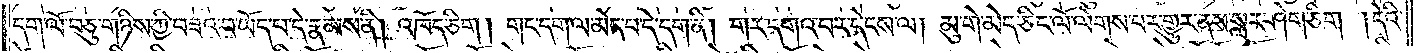དག་ལོ་བཅུ་གཉིས་ཀྱི་བཟའ་བ་ཡོད་པ་དེ་རྣམས་ནི། འཁོད་ཅིག །གང་དག་ལ་མེད་པ་དེ་དག་ནི། གར་དགའ་བར་དེངས་ལ། མུ་གེ་མེད་ཅིང་ལོ་ལེགས་པར་གྱུར་ནས་སླར་ཤེག་ཅིག །དེའི་
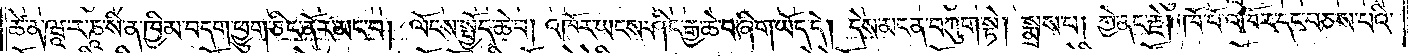ཚེ་ན་ཝཱ་ར་ཎཱ་སི་ན་ཁྱིམ་བདག་ཕྱུག་ཅིང་ནོར་མང་བ། ལོངས་སྤྱོད་ཆེ་བ། འཁོར་ཡངས་ཤིང་རྒྱ་ཆེ་བ་ཞིག་ཡོད་དེ། དེས་མངན་བཀུག་སྟེ། སྨྲས་པ། ཀྱེ་ནང་རྗེ། ཁོ་བོ་འཁོར་དང་བཅས་པའི་
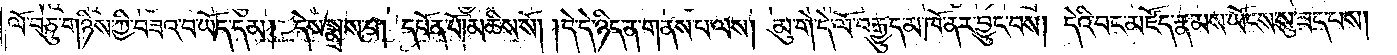ལོ་བཅུ་གཉིས་ཀྱི་བཟའ་བ་ཡོད་དམ། དེས་སྨྲས་པ། དཔོན་པོ། མཆིས་སོ། །དེ་དེ་ཉིད་ན་གནས་པ་ལས། མུ་གེ་དེ་ལོ་བརྒྱུད་མ་ཁོ་ནར་བྱུང་བས། དེའི་བང་མཛོད་རྣམས་ཡོངས་སུ་ཟད་པས།
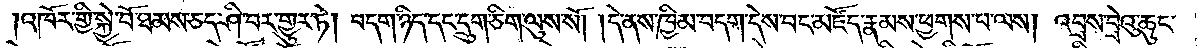འཁོར་གྱི་སྐྱེ་བོ་ཐམས་ཅད་ཤི་བར་གྱུར་ཏེ། བདག་ཉིད་དང་དྲུག་ཅིག་ལུས་སོ། །དེ་ནས་ཁྱིམ་བདག་དེས་བང་མཛོད་རྣམས་ཕྱགས་པ་ལས། འབྲས་བྲེའུ་ཆུང་
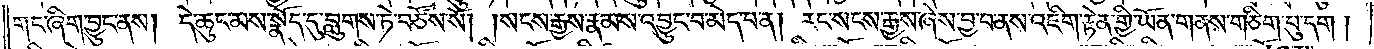གང་ཞིག་བྱུང་ནས། དེ་ཆུང་མས་སྣོད་དུ་བླུགས་ཏེ་བཙོས་སོ། །སངས་རྒྱས་རྣམས་འབྱུང་བ་མེད་པ་ན། རང་སངས་རྒྱས་ཞེས་བྱ་བ་ནས་འཇིག་རྟེན་གྱི་ཡོན་གནས་གཅིག་པུ་དག །
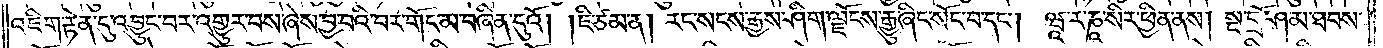འཇིག་རྟེན་དུ་འབྱུང་བར་འགྱུར་བས་ཞེས་བྱ་བའི་བར་གོང་མ་བཞིན་དུའོ། །ཇི་ཙམ་ན། རང་སངས་རྒྱས་ཤིག་ལྗོངས་རྒྱུ་ཞིང་སོང་བ་དང༌། ཝཱ་ར་ཎཱ་སིར་ཕྱིན་ནས། སྔ་དྲོ་ཤམ་ཐབས་
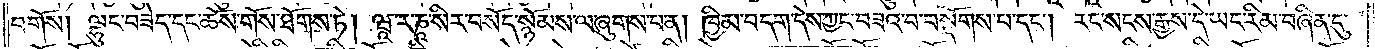བགོས། ལྷུང་བཟེད་དང་ཆོས་གོས་ཐོགས་ཏེ། ཝཱ་ར་ཎཱ་སིར་བསོད་སྙོམས་ལ་ཞུགས་པ་ན། ཁྱིམ་བདག་དེས་ཀྱང་བཟའ་བ་བསྡོགས་པ་དང༌། རང་སངས་རྒྱས་དེ་ཡང་རིམ་བཞིན་དུ་
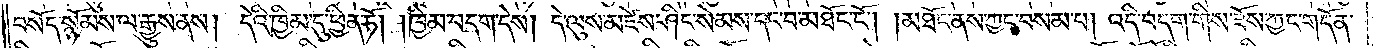བསོད་སྙོམས་ལ་རྒྱུས་ནས། དེའི་ཁྱིམ་དུ་ཕྱིན་ཏོ། །ཁྱིམ་བདག་དེས། དེ་ལུས་མཛེས་ཤིང་སེམས་དང་བ་མཐོང་ངོ༌། །མཐོང་ནས་ཀྱང་བསམ་པ། འདི་བདག་གིས་ཟོས་ཀྱང་གདོན་
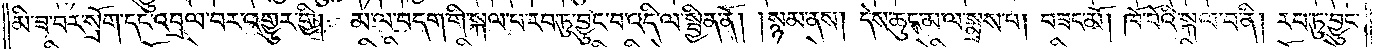མི་ཟ་བར་སྲོག་དང་འབྲལ་བར་འགྱུར་གྱི། མ་ལ་བདག་གི་སྐལ་པ་རབ་ཏུ་བྱུང་བ་འདི་ལ་སྦྱིན་ནོ། །སྙམ་ནས། དེས་ཆུང་མ་ལ་སྨྲས་པ། བཟང་མོ། ཁོ་བོའི་སྐལ་པ་ནི། རབ་ཏུ་བྱུང་
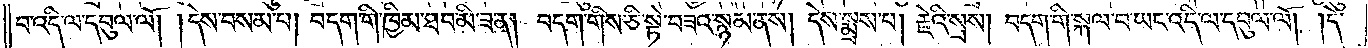བ་འདི་ལ་དབུལ་ལོ། །དེས་བསམ་པ། བདག་གི་ཁྱིམ་ཐབ་མི་ཟ་ན། བདག་གིས་ཅི་སྟེ་བཟའ་སྙམ་ནས། དེས་སྨྲས་པ། རྗེའི་སྲས། བདག་གི་སྐལ་པ་ཡང་འདི་ལ་དབུལ་ལོ། །དེ་
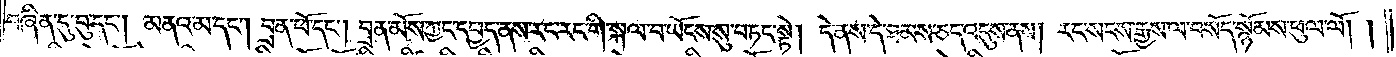བཞིན་དུ་བུ་དང༌། མནའ་མ་དང༌། བྲན་ཕོ་དང༌། བྲན་མོས་ཀྱང་དཔྱད་ནས་རང་རང་གི་སྐལ་བ་ཡོངས་སུ་བཏང་སྟེ། དེ་ནས་དེ་ཐམས་ཅད་འདུས་ནས། རང་སངས་རྒྱས་ལ་བསོད་སྙོམས་ཕུལ་ལོ། །
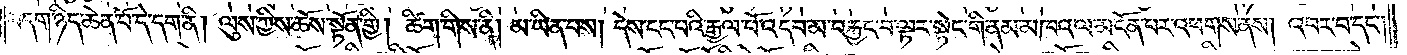བདག་ཉིད་ཆེན་པོ་དེ་དག་ནི། ལུས་ཀྱིས་ཆོས་སྟོན་གྱི། ཚིག་གིས་ནི། མ་ཡིན་པས། དེས་ངང་པའི་རྒྱལ་པོ་འདབ་མ་བརྐྱང་བ་ལྟར་སྟེང་གི་ནམ་མཁའ་ལ་མངོན་པར་འཕགས་ནས། འབར་བ་དང༌།
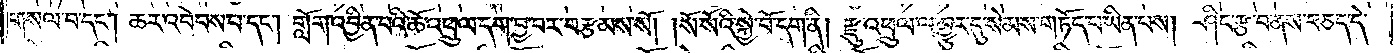གསལ་བ་དང༌། ཆར་འབེབས་པ་དང༌། གློག་འབྱིན་པའི་ཆོ་འཕྲུལ་དག་བྱ་བར་བརྩམས་སོ། །སོ་སོའི་སྐྱེ་བོ་དག་ནི། རྫུ་འཕྲུལ་ལ་མྱུར་དུ་སེམས་གཏོད་པ་ཡིན་པས། ཤིང་རྩ་བ་ནས་བཅད་དེ་
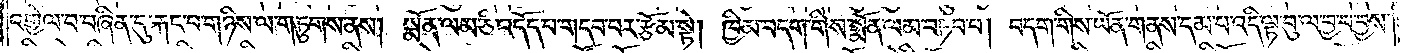འགྱེལ་བ་བཞིན་དུ་རྐང་པ་གཉིས་ལ་གཏུགས་ནས། སྨོན་ལམ་ཅི་འདོད་པ་གདབ་པར་རྩོམ་སྟེ། ཁྱིམ་བདག་གིས་སྨོན་ལམ་བཏབ་པ། བདག་གིས་ཡོན་གནས་དམ་པ་འདི་ལྟ་བུ་ལ་བྱ་བ་བྱས་
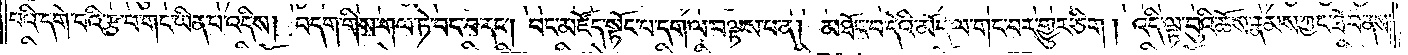པའི་དགེ་བའི་རྩ་བ་གང་ཡིན་པ་འདིས། བདག་གིས་གལ་ཏེ་བང་བ་དང༌། བང་མཛོད་སྟོང་པ་དག་ལ་བལྟས་པ་ན། མཐོང་བ་དེའི་མོད་ལ་གང་བར་གྱུར་ཅིག །འདི་ལྟ་བུའི་ཆོས་རྣམས་ཀྱང་ཐོབ་ནས།
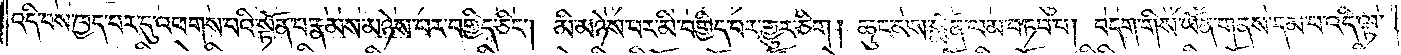འདི་བས་ཁྱད་པར་དུ་འཕགས་པའི་སྟོན་པ་རྣམས་མཉེས་པར་བགྱིད་ཅིང༌། མི་མཉེས་པར་མི་བགྱིད་པར་གྱུར་ཅིག །ཆུང་མས་སྨོན་ལམ་བཏབ་པ། བདག་གིས་ཡོན་གནས་དམ་པ་འདི་ལྟ་
